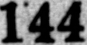144
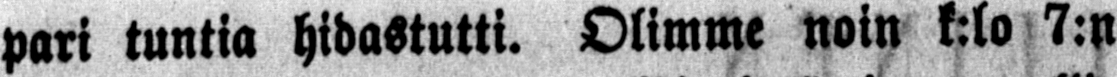pari tuntia hidastutti. Olimme noin k:lo 7:n
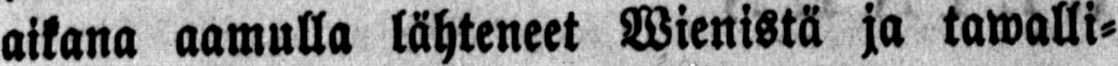aikana aamulla lähteneet Wienistä ja tawalli-
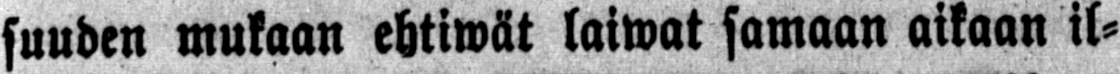suuden mukaan ehtiwät laiwat samaan aikaan il-
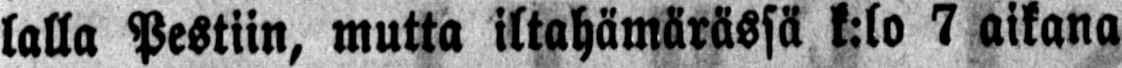lalla Pestiin, mutta iltahämärässä k:lo 7 aikana
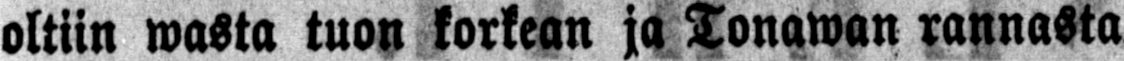oltiin wasta tuon korkean ja Tonawan rannasta
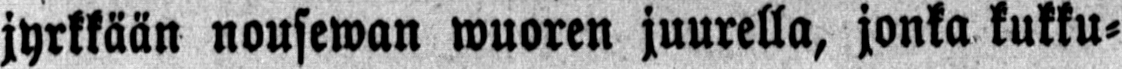jyrkkään nousewan wuoren juurella, jonka kukku-
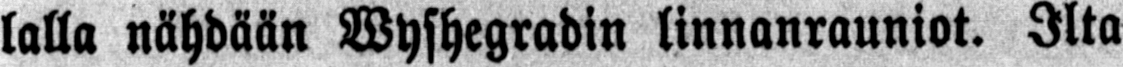lalla nähdään Wyshegradin linnanrauniot. Ilta
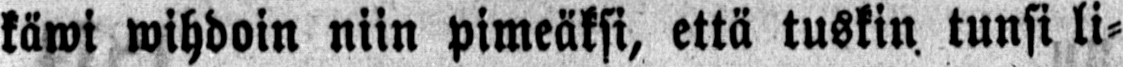käwi wihdoin niin pimeäksi, että tuskin tunsi li-
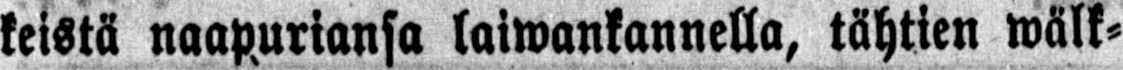keistä naapuriansa laiwankannella, tähtien wälk-
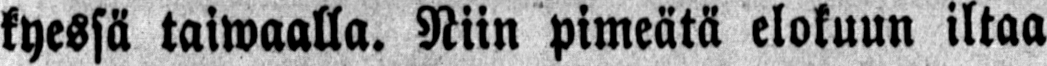kyessä taiwaalla. Niin pimeätä elokuun iltaa —
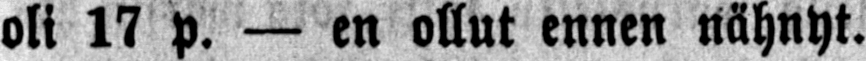oli 17 p. — en ollut ennen nähnyt.
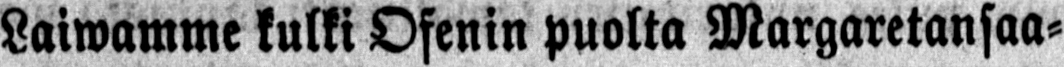Laiwamme kulki Ofenin puolta Margaretansaa-
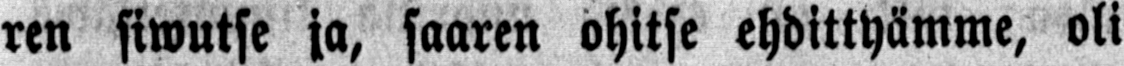ren siwutse ja, saaren ohitse ehdittyämme, oli
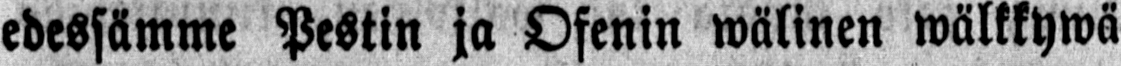edessämme Pestin ja Ofenin wälinen wälkkywä
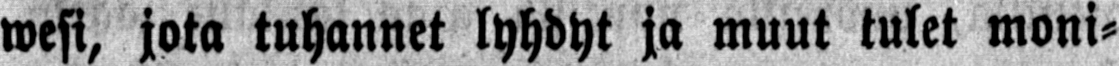wesi, jota tuhannet lyhdyt ja muut tulet moni-
